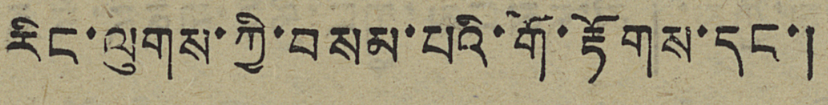རིང་ལུགས་ཀྱི་བསམ་པའི་གོ་རྟོགས་དང་།
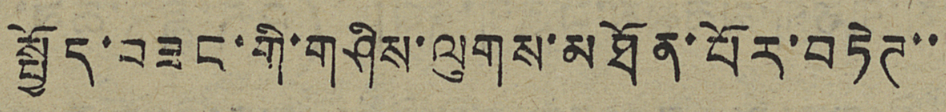སྤྱོད་བཟང་གི་གཤིས་ལུགས་མཐོན་པོར་བཏེཌ་་
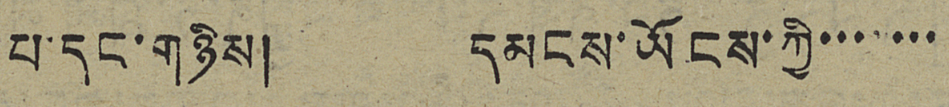པ་དང་གཉིས། དམངས་ཡོངས་ཀྱི་་་་་་་
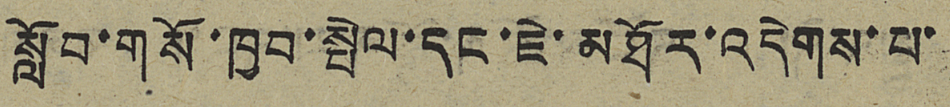སློབ་གསོ་ཁྱབ་སྤེལ་དང་ཇེ་མཐོར་འདེགས་པ་
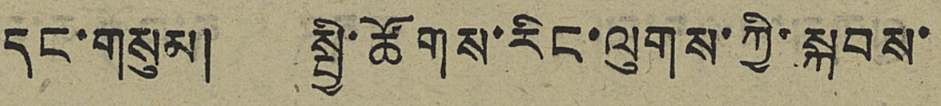དང་གསུམ། སྤྱི་ཚོགས་རིང་ལུགས་ཀྱི་སྐབས་
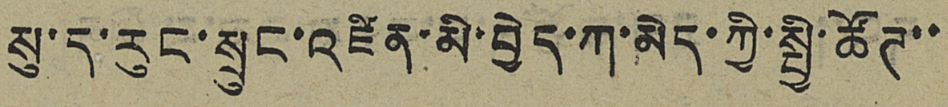སུ་ད་རུང་སྲུང་འཛིན་མི་བྱེད་ཀ་མེད་ཀྱི་སྤྱི་ཚོཊ་་
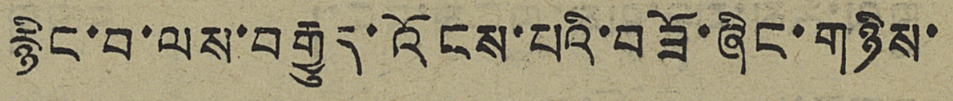རྙིང་བ་ལས་བརྒྱུད་འོངས་པའི་བཟོ་ཞིང་གཉིས་
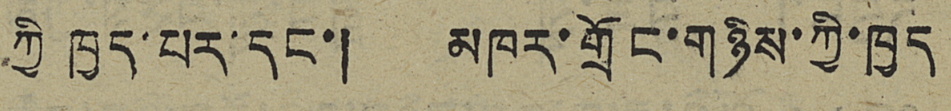ཀྱི་ཁྱད་པར་དང་། མཁར་གྲོང་གཉིས་ཀྱི་ཁྱད
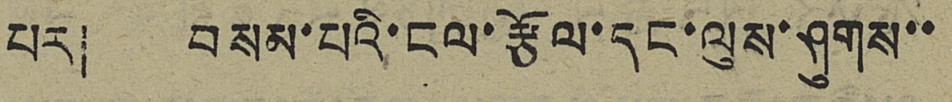པར། བསམ་པའི་ངལ་རྩོལ་དང་ལུས་ཤུགས་་
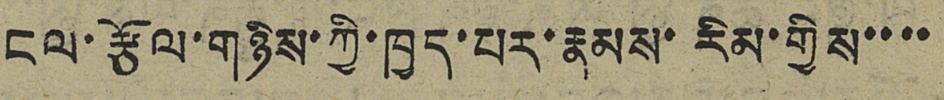ངལ་རྩོལ་གཉིས་ཀྱི་ཁྱད་པར་རྣམས་རིམ་གྱིས་་་་
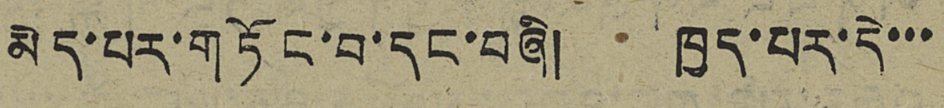མེད་པར་གཏོང་བ་དང་བཞི། ཁྱད་པར་དེ་་་
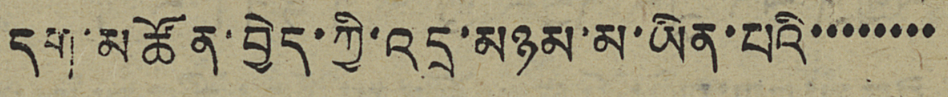དག་མཚོན་བྱེད་ཀྱི་འདྲ་མཉམ་མ་ཡིན་པའི་་་་་་་་
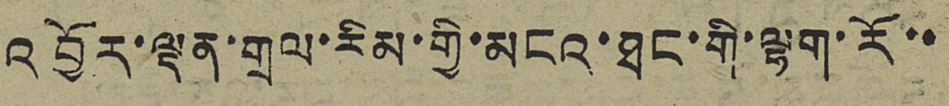འབྱོར་ལྡན་གྲལ་རིམ་གྱི་མངའ་ཐང་གི་ལྷག་རོ་་
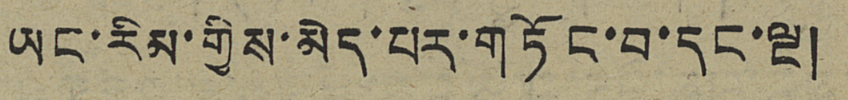ཡང་རིམ་གྱིས་མེད་པར་གཏོང་བ་དང་ལྔ།
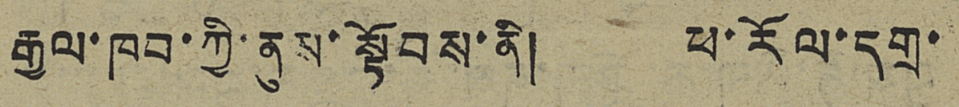རྒྱལ་ཁབ་ཀྱི་ནུས་སྟོབས་ནི། ཕ་རོལ་དགྲ་
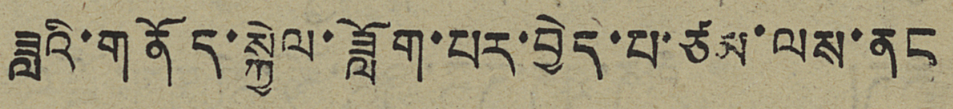ཟླའི་གནོད་སྐྱེལ་ཟློག་པར་བྱེད་པ་ཙམ་ལས་ནང
